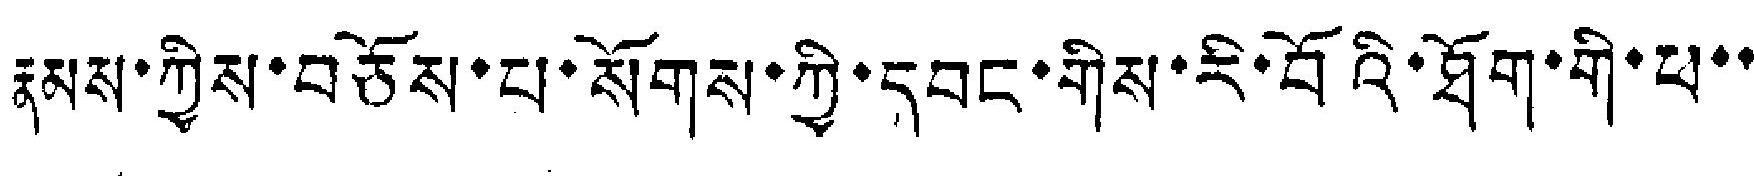རྣམས་ཀྱིས་བཅོས་པ་སོགས་ཀྱི་དབང་གིས་རི་བོའི་ཐོག་གི་ཕ་་
